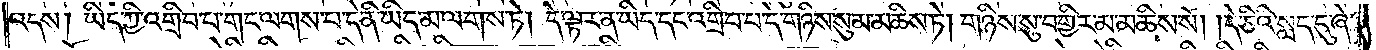འདས། ཡིད་ཀྱི་འགྲིབ་པ་གང་ལགས་པ་དེ་ནི་ཡིད་མ་ལགས་ཏེ། དེ་ལྟར་ན་ཡིད་དང་འགྲིབ་པ་དེ་གཉིས་སུ་མ་མཆིས་ཏེ། གཉིས་སུ་བགྱིར་མ་མཆིས་སོ། །དེ་ཅིའི་སླད་དུ་ཞེ་
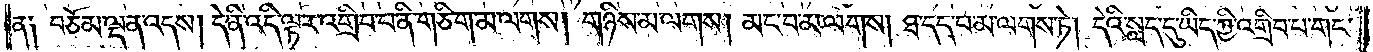ན༑ བཅོམ་ལྡན་འདས། དེ་ནི་འདི་ལྟར་འགྲིབ་པ་ནི་གཅིག་མ་ལགས། གཉིས་མ་ལགས། མང་བ་མ་ལགས། ཐ་དད་པ་མ་ལགས་ཏེ། དེའི་སླད་དུ་ཡིད་ཀྱི་འགྲིབ་པ་གང་
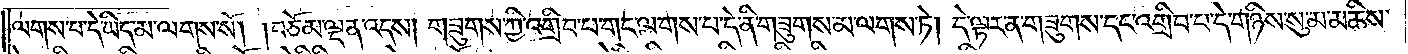ལགས་པ་དེ་ཡིད་མ་ལགས་སོ། །བཅོམ་ལྡན་འདས། གཟུགས་ཀྱི་འགྲིབ་པ་གང་ལགས་པ་དེ་ནི་གཟུགས་མ་ལགས་ཏེ། དེ་ལྟར་ན་གཟུགས་དང་འགྲིབ་པ་དེ་གཉིས་སུ་མ་མཆིས་
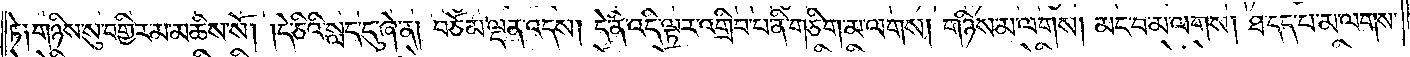ཏེ༑ གཉིས་སུ་བགྱིར་མ་མཆིས་སོ། །དེ་ཅིའི་སླད་དུ་ཞེ་ན། བཅོམ་ལྡན་འདས། དེ་ནི་འདི་ལྟར་འགྲིབ་པ་ནི་གཅིག་མ་ལགས། གཉིས་མ་ལགས། མང་བ་མ་ལགས། ཐ་དད་པ་མ་ལགས་
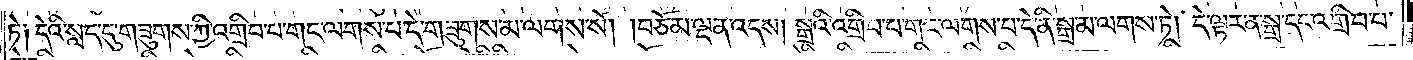ཏེ༑ དེའི་སླད་དུ་གཟུགས་ཀྱི་འགྲིབ་པ་གང་ལགས་པ་དེ་གཟུགས་མ་ལགས་སོ། །བཅོམ་ལྡན་འདས། སྒྲའི་འགྲིབ་པ་གང་ལགས་པ་དེ་ནི་སྒྲ་མ་ལགས་ཏེ། དེ་ལྟར་ན་སྒྲ་དང་འགྲིབ་པ་
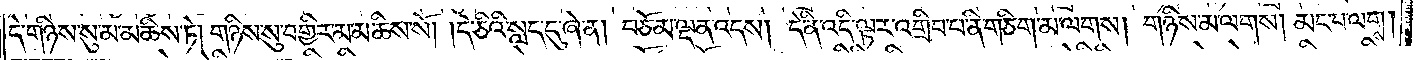དེ་གཉིས་སུ་མ་མཆིས་ཏེ། གཉིས་སུ་བགྱིར་མ་མཆིས་སོ། །དེ་ཅིའི་སླད་དུ་ཞེ་ན། བཅོམ་ལྡན་འདས། དེ་ནི་འདི་ལྟར་འགྲིབ་པ་ནི་གཅིག་མ་ལགས། གཉིས་མ་ལགས། མང་བ་མ་ལགས།
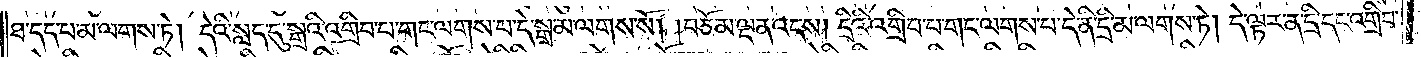ཐ་དད་པ་མ་ལགས་ཏེ། དེའི་སླད་དུ་སྒྲའི་འགྲིབ་པ་གང་ལགས་པ་དེ་སྒྲ་མ་ལགས་སོ། །བཅོམ་ལྡན་འདས། དྲིའི་འགྲིབ་པ་གང་ལགས་པ་དེ་ནི་དྲི་མ་ལགས་ཏེ། དེ་ལྟར་ན་དྲི་དང་འགྲིབ་
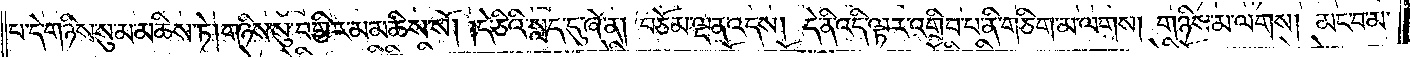པ་དེ་གཉིས་སུ་མ་མཆིས་ཏེ། གཉིས་སུ་བགྱིར་མ་མཆིས་སོ། །དེ་ཅིའི་སླད་དུ་ཞེ་ན། བཅོམ་ལྡན་འདས། དེ་ནི་འདི་ལྟར་འགྲིབ་པ་ནི་གཅིག་མ་ལགས། གཉིས་མ་ལགས། མང་བ་མ་
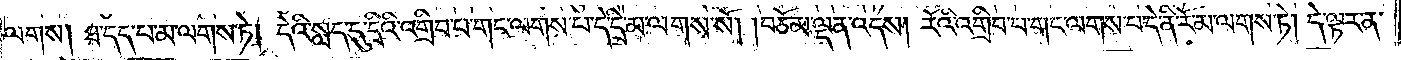ལགས། ཐ་དད་པ་མ་ལགས་ཏེ། དེའི་སླད་དུ་དྲིའི་འགྲིབ་པ་གང་ལགས་པ་དེ་དྲི་མ་ལགས་སོ། །བཅོམ་ལྡན་འདས། རོའི་འགྲིབ་པ་གང་ལགས་པ་དེ་ནི་རོ་མ་ལགས་ཏེ། དེ་ལྟར་ན་
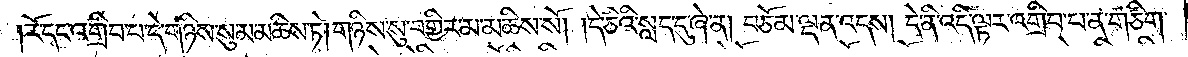རོ་དང་འགྲིབ་པ་དེ་གཉིས་སུ་མ་མཆིས་ཏེ། གཉིས་སུ་བགྱིར་མ་མཆིས་སོ། །དེ་ཅིའི་སླད་དུ་ཞེ་ན། བཅོམ་ལྡན་འདས། དེ་ནི་འདི་ལྟར་འགྲིབ་པ་ནི་གཅིག་
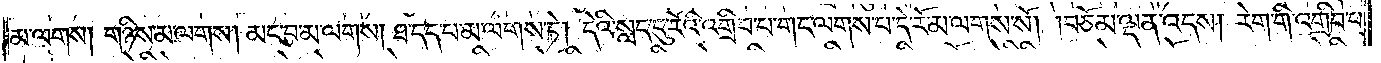མ་ལགས། གཉིས་མ་ལགས། མང་བ་མ་ལགས། ཐ་དད་པ་མ་ལགས་ཏེ། དེའི་སླད་དུ་རོའི་འགྲིབ་པ་གང་ལགས་པ་དེ་རོ་མ་ལགས་སོ། །བཅོམ་ལྡན་འདས། རེག་གི་འགྲིབ་པ་
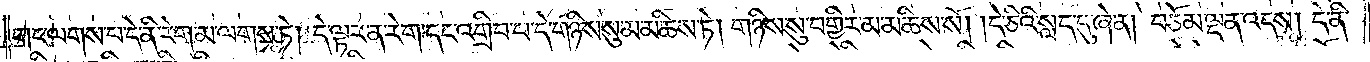གང་ལགས་པ་དེ་ནི་རེག་མ་ལགས་ཏེ། དེ་ལྟར་ན་རེག་དང་འགྲིབ་པ་དེ་གཉིས་སུ་མ་མཆིས་ཏེ། གཉིས་སུ་བགྱིར་མ་མཆིས་སོ། །དེ་ཅིའི་སླད་དུ་ཞེ་ན། བཅོམ་ལྡན་འདས། དེ་ནི་
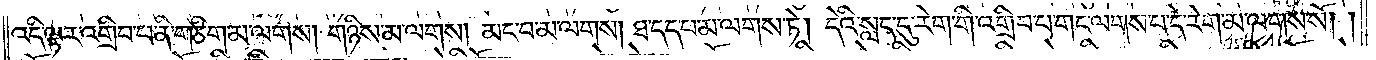འདི་ལྟར་འགྲིབ་པ་ནི་གཅིག་མ་ལགས། གཉིས་མ་ལགས། མང་བ་མ་ལགས། ཐ་དད་པ་མ་ལགས་ཏེ། དེའི་སླད་དུ་རེག་གི་འགྲིབ་པ་གང་ལགས་པ་དེ་རེག་མ་ལགས་སོ། །
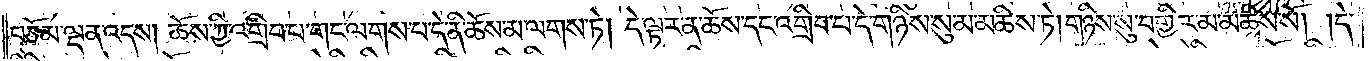བཅོམ་ལྡན་འདས། ཆོས་ཀྱི་འགྲིབ་པ་གང་ལགས་པ་དེ་ནི་ཆོས་མ་ལགས་ཏེ། དེ་ལྟར་ན་ཆོས་དང་འགྲིབ་པ་དེ་གཉིས་སུ་མ་མཆིས་ཏེ། གཉིས་སུ་བགྱིར་མ་མཆིས་སོ། །དེ་
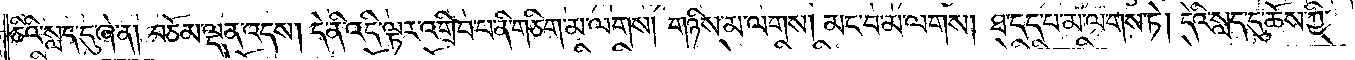ཅིའི་སླད་དུ་ཞེ་ན། བཅོམ་ལྡན་འདས། དེ་ནི་འདི་ལྟར་འགྲིབ་པ་ནི་གཅིག་མ་ལགས། གཉིས་མ་ལགས། མང་བ་མ་ལགས། ཐ་དད་པ་མ་ལགས་ཏེ། དེའི་སླད་དུ་ཆོས་ཀྱི་
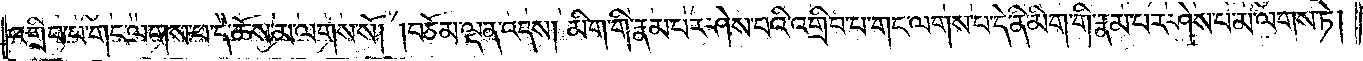འགྲིབ་པ་གང་ལགས་པ་དེ་ཆོས་མ་ལགས་སོ། །བཅོམ་ལྡན་འདས། མིག་གི་རྣམ་པར་ཤེས་པའི་འགྲིབ་པ་གང་ལགས་པ་དེ་ནི་མིག་གི་རྣམ་པར་ཤེས་པ་མ་ལགས་ཏེ།
